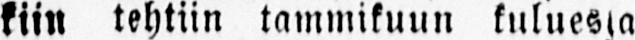kiin tehtiin tammikuun kuluessa
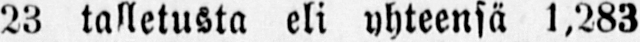23 talletusta eli yhteensä 1,283
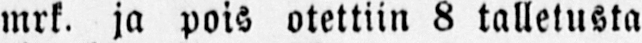mrk. ja pois otettiin 8 talletusta
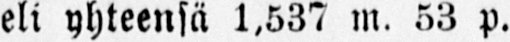eli yhteensä 1,537 m. 53 p.
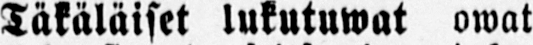Täkäläiset lukutuwat owat
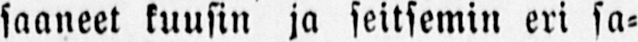saaneet kuusin ja seitsemin eri sa-
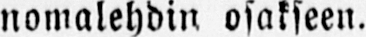nomalehdin osakseen.
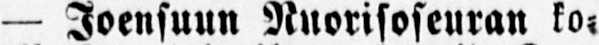— Joensuun Nuorisoseuran ko-
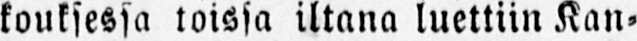kouksessa toissa iltana luettiin Kan-
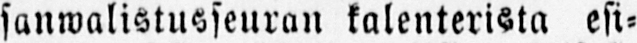sanwalistusseuran kalenterista esi-
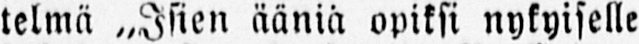telmä „Isien ääniä opiksi nykyiselle
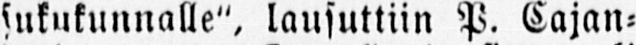sukukunnalle", lausuttiin P. Cajan-
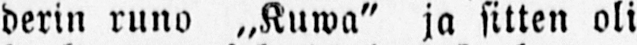derin runo „Kuwa" ja sitten oli
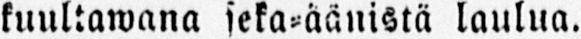kuultawana seka-äänistä laulua.
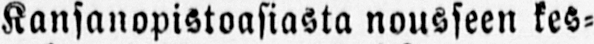Kansanopistoasiasta nousseen kes-
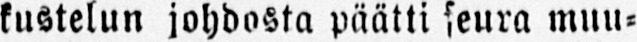kustelun johdosta päätti seura muu-
